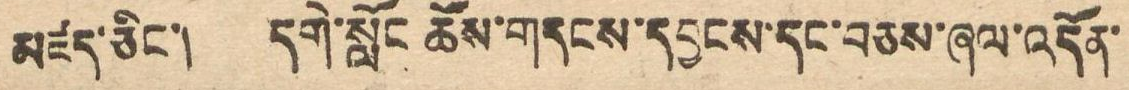མཛད་ཅིང་། དགེ་སློང ཆོས་གདངས་དབྱངས་དང་བཅས་ཞལ་འདོན་
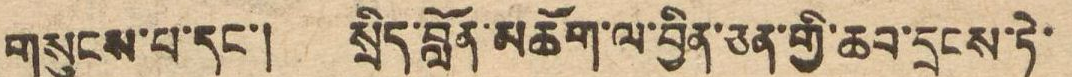གསུངས་པ་དང་། སྲིད་བློན་མཆོག་ལ་བྱིན་ཅན་གྱི་ཆབ་དྲངས་ཏེ་
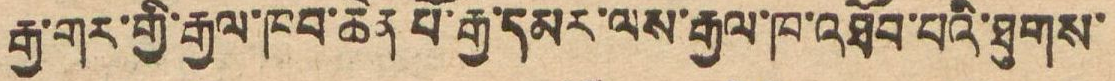རྒྱ་གར་གྱི་རྒྱལ་ཁབ་ཆེན་པོ་རྒྱ་དམར་ལས་རྒྱལ་ཁབ་འཐོབ་པའི་ཐུགས་
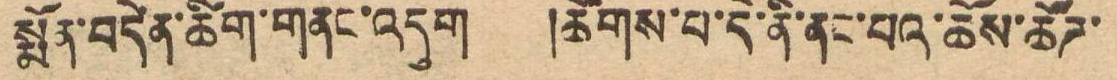སྨོན་བདེན་ཚོག་གནང་འདུག །ཚོགས་པ་དེ་ནི་ནང་པའི་ཆོས་ཚོཊ་
